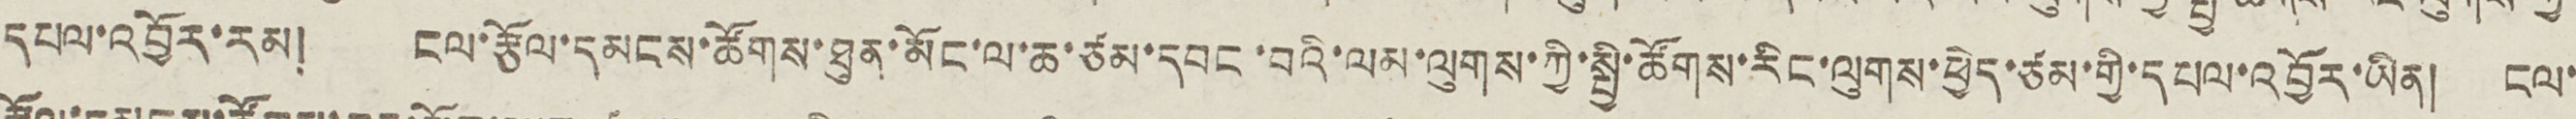དཔལ་འབྱོར་རམ། ངལ་རྩོལ་དམངས་ཚོགས་ཐུན་མོང་ལ་ཆ་ཙམ་དབང་བའི་ལམ་ལུགས་ཀྱི་སྤྱི་ཚོགས་རིང་ལུགས་ཕྱེད་ཙམ་གྱི་དཔལ་འབྱོར་ཡིན། ངལ་
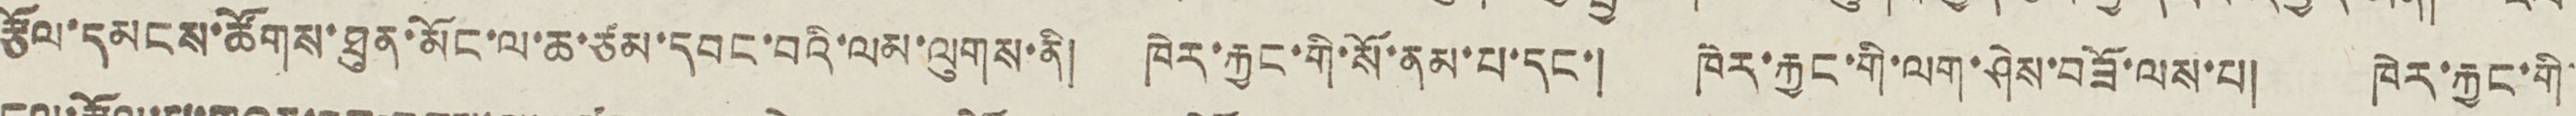རྩོལ་དམངས་ཚོགས་ཐུན་མོང་ལ་ཆ་ཙམ་དབང་བའི་ལམ་ལུགས་ནི། ཁེར་རྐྱང་གི་སོ་ནམ་པ་དང་། ཁེར་རྐྱང་གི་ལག་ཤེས་བཟོ་ལས་པ། ཁེར་རྐྱང་གི་
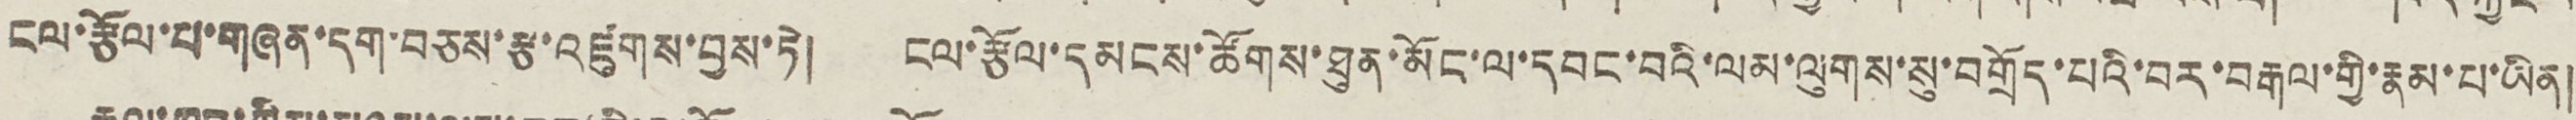ངལ་རྩོལ་པ་གཞན་དག་བཅས་རྩ་འཛུགས་བྱས་ཏེ། ངལ་རྩོལ་དམངས་ཚོགས་ཐུན་མོང་ལ་དབང་བའི་ལམ་ལུགས་སུ་བགྲོད་པའི་བར་བརྒལ་གྱི་རྣམ་པ་ཡིན།
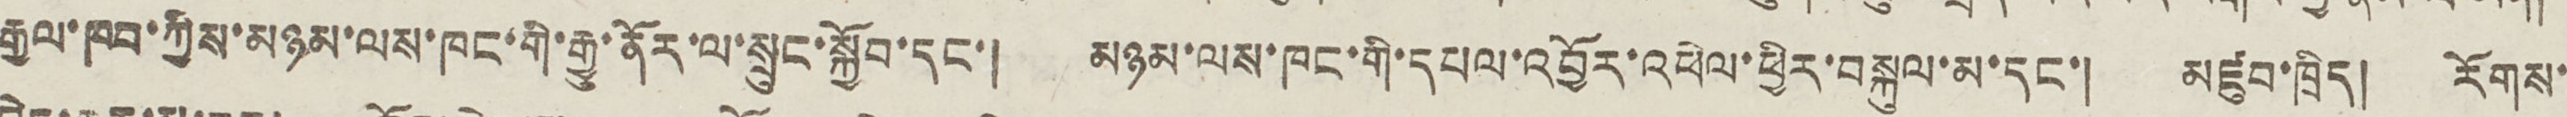རྒྱལ་ཁབ་ཀྱིས་མཉམ་ལས་ཁང་གི་རྒྱུ་ནོར་ལ་སྲུང་སྐྱོབ་དང་། མཉམ་ལས་ཁང་གི་དཔལ་འབྱོར་འཕེལ་ཕྱིར་བསྐུལ་མ་དང་། མཛུབ་ཁྲིད། རོགས་
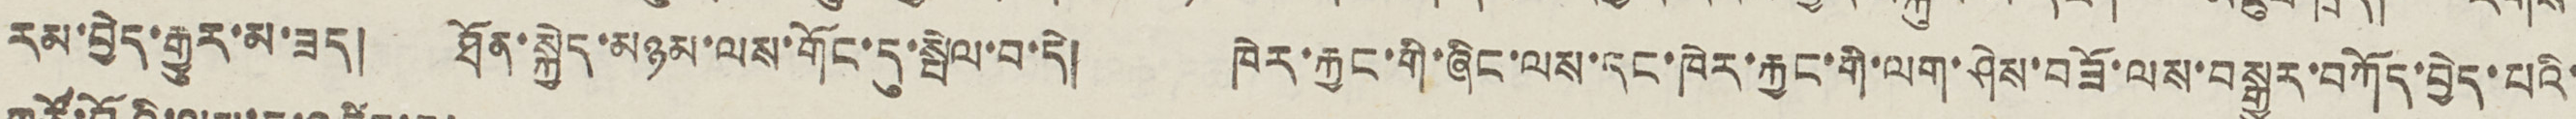རམ་བྱེད་རྒྱུར་མ་ཟད། ཐོན་སྐྱེད་མཉམ་ལས་གོང་དུ་སྤེལ་བ་དེ། ཁེར་རྐྱང་གི་ཞིང་ལས་དང་ཁེར་རྐྱང་གི་ལག་ཤེས་བཟོ་ལས་བསྒྱུར་བཀོད་བྱེད་པའི་
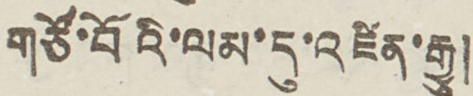གཙོ་བོའི་ལམ་དུ་འཛིན་རྒྱུ།
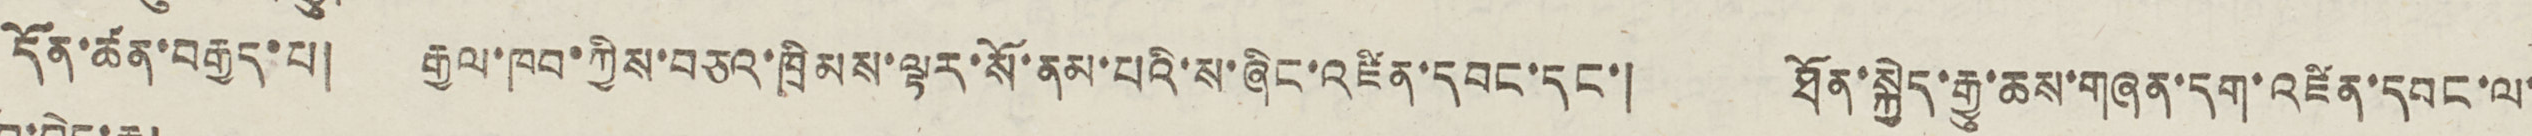དོན་ཚན་བརྒྱད་པ། རྒྱལ་ཁབ་ཀྱིས་བཅའ་ཁྲིམས་ལྟར་སོ་ནམ་པའི་ས་ཞིང་འཛིན་དབང་དང་། ཐོན་སྐྱེད་རྒྱུ་ཆས་གཞན་དག་འཛིན་དབང་ལ་
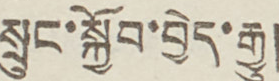སྲུང་སྐྱོབ་བྱེད་རྒྱུ།
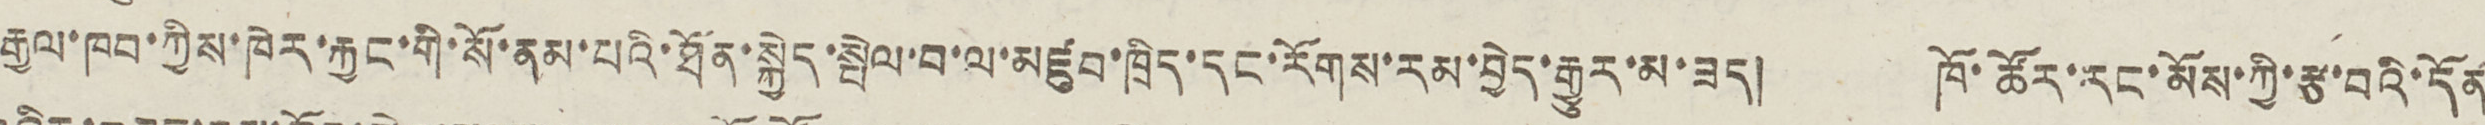རྒྱལ་ཁབ་ཀྱིས་ཁེར་རྐྱང་གི་སོ་ནམ་པའི་ཐོན་སྐྱེད་སྤེལ་བ་ལ་མཛུབ་ཁྲིད་དང་རོགས་རམ་བྱེད་རྒྱུར་མ་ཟད། ཁོ་ཚོར་རང་མོས་ཀྱི་རྩ་བའི་དོན
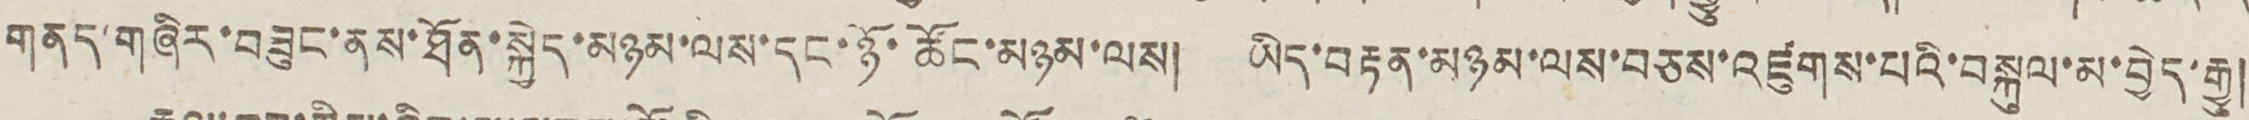གནད་གཞིར་བཟུང་ནས་ཐོན་སྐྱེད་མཉམ་ལས་དང་ཉོ་ཚོང་མཉམ་ལས། ཡིད་བརྟན་མཉམ་ལས་བཅས་འཛུགས་པའི་བསྐུལ་མ་བྱེད་རྒྱུ།
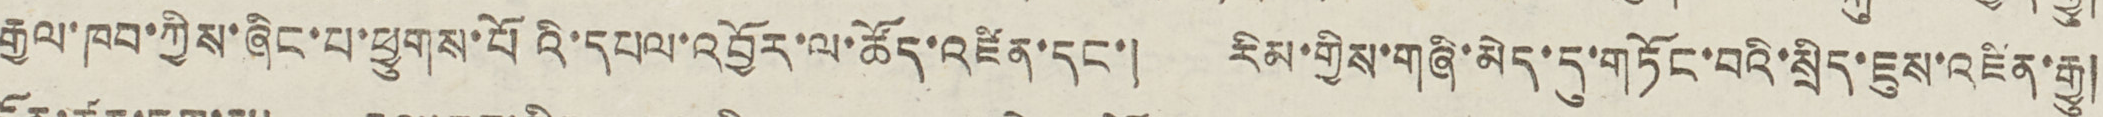རྒྱལ་ཁབ་ཀྱིས་ཞིང་པ་ཕྱུགས་པོའི་དཔལ་འབྱོར་ལ་ཚོད་འཛིན་དང་། རིམ་གྱིས་གཞི་མེད་དུ་གཏོང་བའི་སྲིད་ཇུས་འཛིན་རྒྱུ།
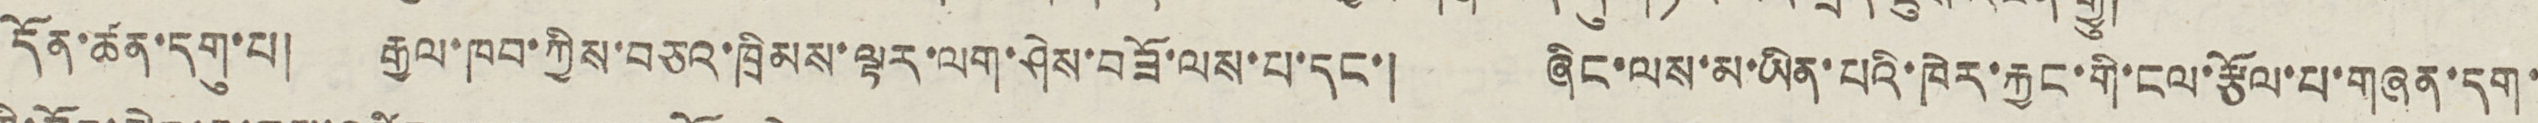དོན་ཚན་དགུ་པ། རྒྱལ་ཁབ་ཀྱིས་བཅའ་ཁྲིམས་ལྟར་ལག་ཤེས་བཟོ་ལས་པ་དང་། ཞིང་ལས་མ་ཡིན་པའི་ཁེར་རྐྱང་གི་ངལ་རྩོལ་པ་གཞན་དག་
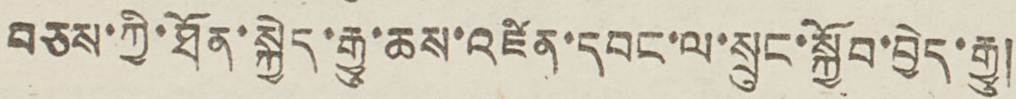བཅས་ཀྱི་ཐོན་སྐྱེད་རྒྱུ་ཆས་འཛིན་དབང་ལ་སྲུང་སྐྱོབ་བྱེད་རྒྱུ།
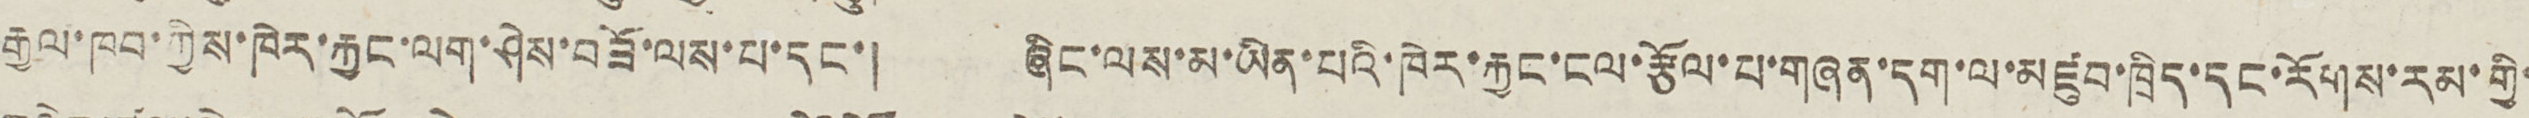རྒྱལ་ཁབ་ཀྱིས་ཁེར་རྐྱང་ལག་ཤེས་བཟོ་ལས་པ་དང་། ཞིང་ལས་མ་ཡིན་པའི་ཁེར་རྐྱང་ངལ་རྩོལ་པ་གཞན་དག་ལ་མཛུབ་ཁྲིད་དང་རོགས་རམ་གྱི་
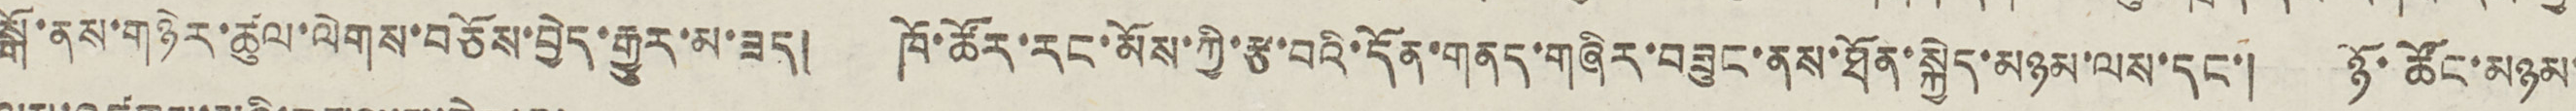སྒོ་ནས་གཉེར་ཚུལ་ལེགས་བཅོས་བྱེད་རྒྱུར་མ་ཟད། ཁོ་ཚོར་རང་མོས་ཀྱི་རྩ་བའི་དོན་གནད་གཞིར་བཟུང་ནས་ཐོན་སྐྱེད་མཉམ་ལས་དང་། ཉོ་ཚོང་མཉམ་
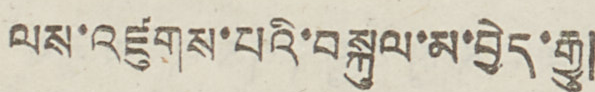ལས་འཛུགས་པའི་བསྐུལ་མ་བྱེད་རྒྱུ།
